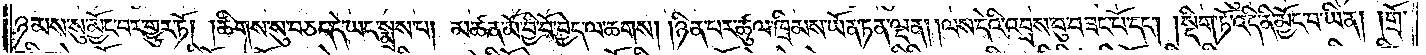ཉམས་སུ་མྱོང་བར་གྱུར་ཏོ། །ཚིགས་སུ་བཅད་དེ་ཡང་སྨྲས་པ། མཚན་མོ་བྱི་བོ་བྱེད་ལ་ཆགས། །ཉིན་པར་ཚུལ་ཁྲིམས་ཡོན་ཏན་ལྡན། །ལས་དེའི་འབྲས་བུ་བཟང་པོ་དང༌། །སྡིག་ཏོ་འདི་ནི་མྱོང་བ་ཡིན། །གྲོ་
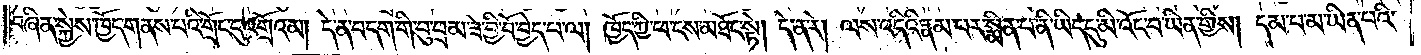བཞིན་སྐྱེས་ཁྱོད་གནས་པའི་གྲོང་དུ་འགྲོའམ། དེ་ན་བདག་གི་བུ་བྲམ་ཟེ་བྱི་བོ་བྱེད་པ་ལ། ཁྱོད་ཀྱི་ཕ་ངས་མཐོང་སྟེ། དེ་ན་རེ། ལས་འདིའི་རྣམ་པར་སྨིན་པ་ནི་ཡིད་དུ་མི་འོང་བ་ཡིན་གྱིས། དམ་པ་མ་ཡིན་པའི་
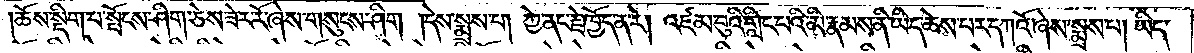ཆོས་སྡིག་པ་སྤོངས་ཤིག་ཅེས་ཟེར་རོ་ཞེས་གསུངས་ཤིག །དེས་སྨྲས་པ། ཀྱེ་ནང་རྗེ་ཁྱོད་ན་རེ། འཛམ་བུའི་གླིང་པའི་མི་རྣམས་ནི་ཡིད་ཆེས་པར་དཀའོ་ཞེས་སྨྲས་པ། ཡིད་
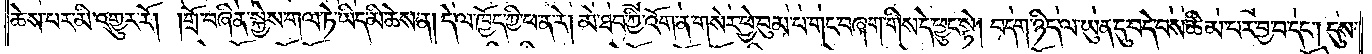ཆེས་པར་མི་འགྱུར་རོ། །གྲོ་བཞིན་སྐྱེས་གལ་ཏེ་ཡིད་མི་ཆེས་ན། དེ་ལ་ཁྱོད་ཀྱི་ཕ་ན་རེ། མེ་ཐབ་ཀྱི་འོག་ན་གསེར་ཕྱེ་བུམ་པ་གང་བཞག་གིས་དེ་ཕྱུང་སྟེ། བདག་ཉིད་ལ་ཡུན་དུ་བདེ་བས་ཚིམ་པར་བྱ་བ་དང༌། དུས་
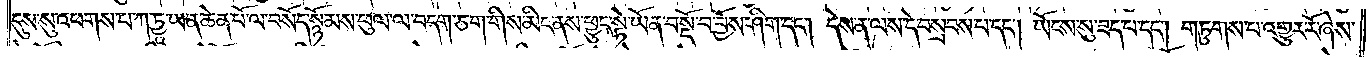དུས་སུ་འཕགས་པ་ཀ་ཏྱཱ་ཡ་ན་ཆེན་པོ་ལ་བསོད་སྙོམས་ཕུལ་ལ་བདག་ཅག་གིས་མིང་ནས་ཕྱུང་སྟེ་ཡོན་བསྔོ་བ་བྱོས་ཤིག་དང༌། དེས་ན་ལས་དེ་བསྲབས་པ་དང༌། ཡོངས་སུ་ཟད་པ་དང༌། གཏུགས་པ་འགྱུར་རོ་ཞེས་
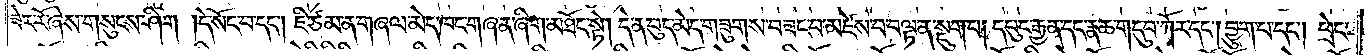ཟེར་རོ་ཞེས་གསུངས་ཤིག །དེ་སོང་པ་དང༌། ཇི་ཙམ་ན་གཞལ་མེད་ཁང་གཞན་ཞིག་མཐོང་སྟེ། དེ་ན་བུད་མེད་གཟུགས་བཟང་བ་མཛེས་བ་བལྟ་ན་སྡུག་པ། དཔུང་རྒྱན་དང་རྣ་ཆ་གདུབ་ཀོར་དང༌། བྱུག་པ་དང༌། ཕྲེང་
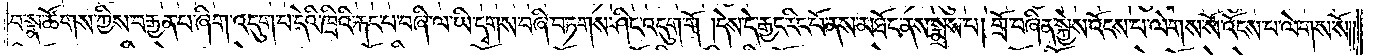བ་སྣ་ཚོགས་ཀྱིས་བརྒྱན་པ་ཞིག་འདུག་པ་དེའི་ཁྲིའི་རྐང་པ་བཞི་ལ་ཡི་དྭགས་བཞི་བཏགས་ཤིང་འདུག་གོ །དེས་དེ་རྒྱང་རིང་པོ་ནས་མཐོང་ནས་སྨྲས་པ། གྲོ་བཞིན་སྐྱེས་འོངས་པ་ལེགས་སོ་འོངས་པ་ལེགས་སོ༎
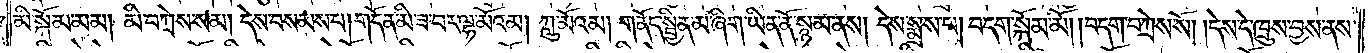མི་སྐོམ་མམ། མི་བཀྲེས་སམ། དེས་བསམས་པ། གདོན་མི་ཟ་བར་ལྷ་མོའམ། ཀླུ་མོའམ། གནོད་སྦྱིན་མ་ཞིག་ཡིན་ནོ་སྙམ་ནས། དེས་སྨྲས་པ། བདག་སྐོམ་མོ། །བདག་བཀྲེས་སོ། །དེས་དེ་ཁྲུས་བྱས་ནས་
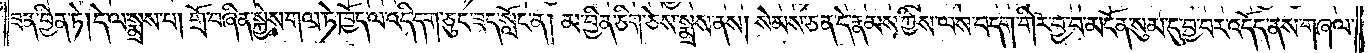ཟན་བྱིན་ཏེ། དེ་ལ་སྨྲས་པ། གྲོ་བཞིན་སྐྱེས་གལ་ཏེ་ཁྱོད་ལ་འདི་དག་ཅུང་ཟད་སློང་ན། མ་བྱིན་ཅིག་ཅེས་སྨྲས་ནས། སེམས་ཅན་དེ་རྣམས་ཀྱིས་ལས་བདག་གིར་བྱ་བ་མངོན་སུམ་དུ་བྱ་བར་འདོད་ནས་གཞལ་
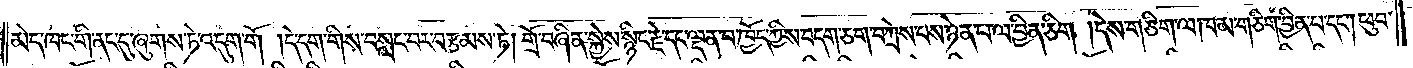མེད་ཁང་གི་ནང་དུ་ཞུགས་ཏེ་འདུག་གོ །དེ་དག་གིས་བསླང་བར་བརྩམས་ཏེ། གྲོ་བཞིན་སྐྱེས་སྙིང་རྗེ་དང་ལྡན་བ་ཁྱོད་ཀྱིས་བདག་ཅག་བཀྲེས་པས་ཉེན་པ་ལ་བྱིན་ཅིག །དེས་གཅིག་ལ་ཁམ་གཅིག་བྱིན་པ་དང༌། ཕུབ་
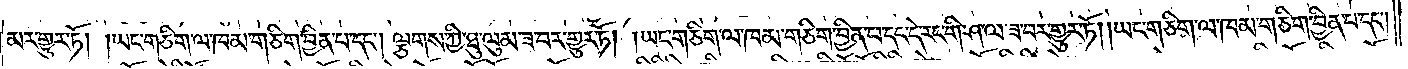མར་གྱུར་ཏོ། །ཡང་གཅིག་ལ་ཁམ་གཅིག་བྱིན་པ་དང༌། ལྕགས་ཀྱི་ཐུ་ལུམ་ཟ་བར་གྱུར་ཏོ། །ཡང་གཅིག་ལ་ཁམ་གཅིག་བྱིན་པ་དང་དེ་རང་གི་ཤ་ལ་ཟ་བར་གྱུར་ཏོ། །ཡང་གཅིག་ལ་ཁམ་གཅིག་བྱིན་པ་དང༌།
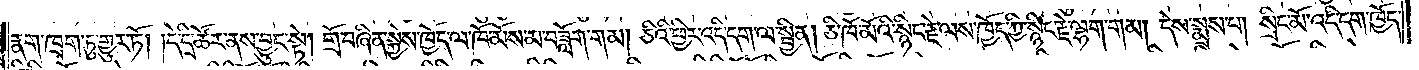རྣག་ཁྲག་ཏུ་གྱུར་ཏོ། །དེ་དྲི་ཚོར་ནས་བྱུང་སྟེ། གྲོ་བཞིན་སྐྱེས་ཁྱོད་ལ་ཁོ་མོས་མ་བཟློག་གམ། ཅིའི་ཕྱིར་འདི་དག་ལ་སྦྱིན། ཅི་ཁོ་མོའི་སྙིང་རྗེ་ལས་ཁྱོད་ཀྱི་སྙིང་རྗེ་ལྷག་གམ། དེས་སྨྲས་པ། སྲིང་མོ་འདི་དག་ཁྱོད་
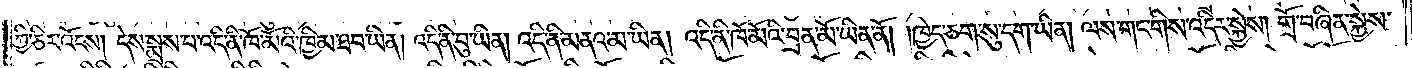ཀྱི་ཅིར་འོངས། དེས་སྨྲས་པ་འདི་ནི་ཁོ་མོའི་ཁྱིམ་ཐབ་ཡིན། འདི་ནི་བུ་ཡིན། འདི་ནི་མནའ་མ་ཡིན། འདི་ནི་ཁོ་མོའི་བྲན་མོ་ཡིན་ནོ། །ཁྱེད་ཅག་སུ་དག་ཡིན། ལས་གང་གིས་འདིར་སྐྱེས། གྲོ་བཞིན་སྐྱེས་
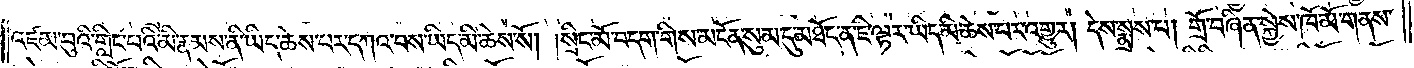འཛམ་བུའི་གླིང་པའི་མི་རྣམས་ནི་ཡིད་ཆེས་པར་དཀའ་བས་ཡིད་མི་ཆེས་སོ། །སྲིང་མོ་བདག་གིས་མངོན་སུམ་དུ་མཐོང་ན་ཇི་ལྟར་ཡིད་མི་ཆེས་པར་འགྱུར། དེས་སྨྲས་པ། གྲོ་བཞིན་སྐྱེས་ཁོ་མོ་གནས་
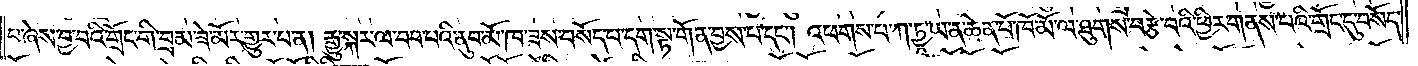བ་ཞེས་བྱ་བའི་གྲོང་གི་བྲམ་ཟེ་མོར་གྱུར་པ་ན། རྒྱུ་སྐར་ལ་བབ་པའི་ནུབ་མོ་ཁ་ཟས་བསོད་པ་དག་སྟ་གོན་བྱས་པ་དང༌། འཕགས་པ་ཀ་ཏྱཱ་ཡ་ན་ཆེན་པོ་ཁོ་མོ་ལ་ཐུགས་བརྩེ་བའི་ཕྱིར་གནས་པའི་གྲོང་དུ་བསོད་
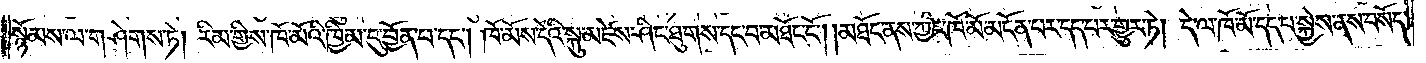སྙོམས་ལ་གཤེགས་ཏེ། རིམ་གྱིས་ཁོ་མོའི་ཁྱིམ་དུ་བྱོན་པ་དང༌། ཁོ་མོས་དེའི་སྐུ་མཛེས་ཤིང་ཐུགས་དང་བ་མཐོང་ངོ༌། །མཐོང་ནས་ཀྱང་ཁོ་མོ་མངོན་པར་དད་པར་གྱུར་ཏེ། དེ་ལ་ཁོ་མོ་དད་པ་སྐྱེས་ནས་བསོད་
